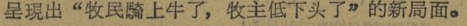呈現出“牧民騎上牛了，牧主低下头了”的新局面。
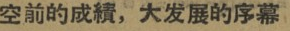空前的成績，大发展的序幕
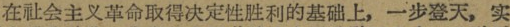在社会主义革命取得决定性胜利的基础上，一步登天，实
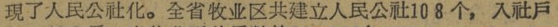現了人民公社化。全省牧业区共建立人民公社108个，入社户
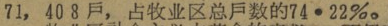71，408户，占牧业区总户数的74・22％。
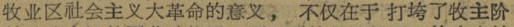牧业区社会主义大革命的意义，不仅在于 打垮了牧主阶
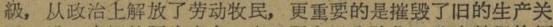級，从政治上解放了劳动牧民，更重要的是摧毁了旧的生产关
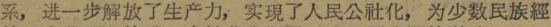系，进一步解放了生产力，实現了人民公社化，为少数民族經
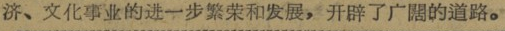济、文化事业的进一步繁荣和发展，开辟了广闊的道路。
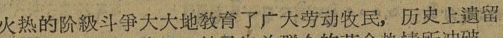火热的阶级斗爭大大地敎育了广大劳动牧民，历史上遺留
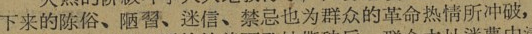下来的陈俗、陋習、迷信、禁忌也为群众的革命热情所冲破，
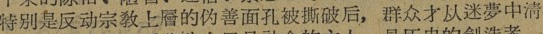特别是反动宗敎上層的伪善面孔被撕破后，群众才从迷夢中清
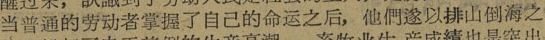当普通的劳动者掌握了自己的命运之后，他們遂以排山倒海之
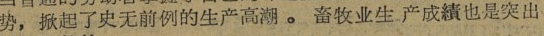势，掀起了史无前例的生产高潮。畜牧业生产成績也是突出
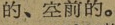的、空前的。
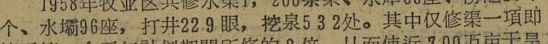个，水壩96座，打井229眼，挖泉532处。其中仅修渠一項即
